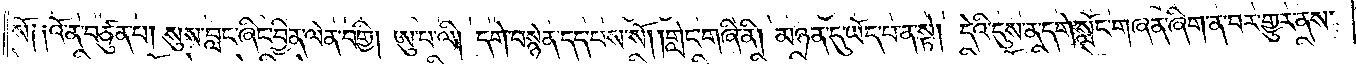སོ༑ ༑འོ་ན་བཙུན་པ། སུས་བླང་ཞིང་བྱིན་ལེན་བགྱི། ཨུ་པ་ལི། དགེ་བསྙེན་དད་པས་སོ། །གླེང་གཞི་ནི། མཉན་དུ་ཡོད་པ་ན་སྟེ། དེའི་དུས་ན་དགེ་སློང་གཞན་ཞིག་ན་བར་གྱུར་ནས་
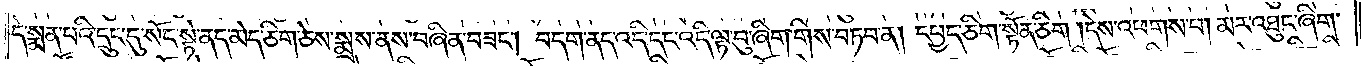དེ་སྨན་པའི་དྲུང་དུ་སོང་སྟེ་ནད་མེད་ཅིག་ཅེས་སྨྲས་ནས་བཞིན་བཟང༌། བདག་ནད་འདི་དང་འདི་ལྟ་བུ་ཞིག་གིས་བཏབ་ན། དཔྱད་ཅིག་སྟོན་ཅིག །དེས་འཕགས་པ། མར་འཐུང་ཞིག་
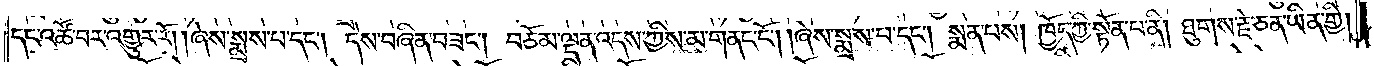དང་འཚོ་བར་འགྱུར་རོ། །ཞེས་སྨྲས་པ་དང༌། དེས་བཞིན་བཟང༌། བཅོམ་ལྡན་འདས་ཀྱིས་མ་གནང་ངོ༌། །ཞེས་སྨྲས་པ་དང༌། སྨན་པས། ཁྱོད་ཀྱི་སྟོན་པ་ནི། ཐུགས་རྗེ་ཅན་ཡིན་གྱི།
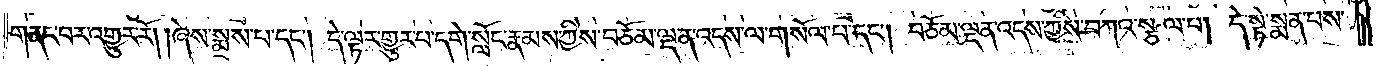གནང་བར་འགྱུར་རོ། །ཞེས་སྨྲས་པ་དང༌། དེ་ལྟར་གྱུར་པ་དགེ་སློང་རྣམས་ཀྱིས་བཅོམ་ལྡན་འདས་ལ་གསོལ་པ་དང༌། བཅོམ་ལྡན་འདས་ཀྱིས་བཀའ་སྩལ་པ། དེ་སྟེ་སྨན་པས་
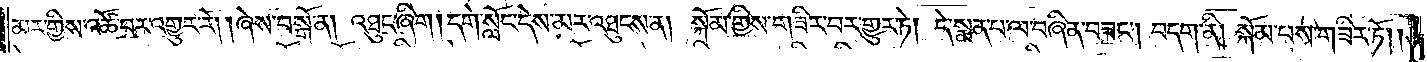མར་གྱིས་འཚོ་བར་འགྱུར་རོ། །ཞེས་བསྒོ་ན། འཐུང་ཞིག། དགེ་སློང་དེས་མར་འཐུངས་ན། སྐོམ་གྱིས་གཟིར་བར་གྱུར་ཏེ། དེ་སྨན་པ་ལ་བཞིན་བཟང༌། བདག་ནི། སྐོམ་པས་གཟིར་ཏོ། །
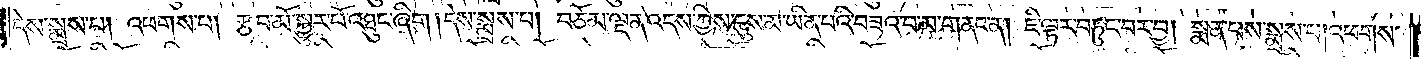དེས་སྨྲས་པ། འཕགས་པ། རྩབ་མོ་སྐྱུར་པོ་འཐུང་ཞིག །དེས་སྨྲས་པ། བཅོམ་ལྡན་འདས་ཀྱིས་དུས་མ་ཡིན་པའི་བཟའ་བ་མ་གནང་ན། ཇི་ལྟར་བཏུང་བར་བྱ། སྨན་པས་སྨྲས་པ། འཕགས་
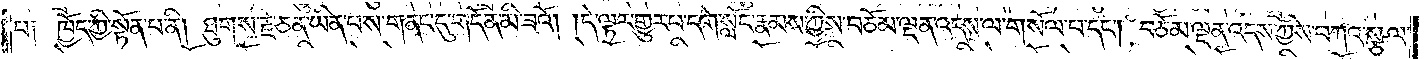པ༑ ཁྱོད་ཀྱི་སྟོན་པ་ནི། ཐུགས་རྗེ་ཅན་ཡིན་པས་གནང་དུ་གདན་མི་ཟའོ། །དེ་ལྟར་གྱུར་པ་དགེ་སློང་རྣམས་ཀྱིས་བཅོམ་ལྡན་འདས་ལ་གསོལ་པ་དང༌། བཅོམ་ལྡན་འདས་ཀྱིས་བཀའ་སྩལ་
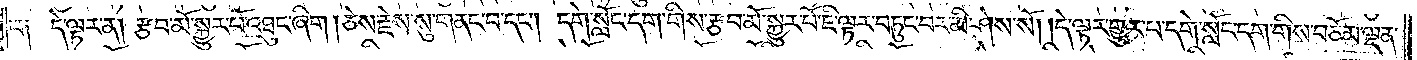པ༑ དེ་ལྟར་ན། རྩབ་མོ་སྐྱུར་པོ་འཐུང་ཞིག །ཅེས་རྗེས་སུ་གནང་བ་དང༌། དགེ་སློང་དག་གིས་རྩབ་མོ་སྐྱུར་པོ་ཇི་ལྟར་བཏུང་བར་མི་ཤེས་སོ། །དེ་ལྟར་གྱུར་པ་དགེ་སློང་དག་གིས་བཅོམ་ལྡན་
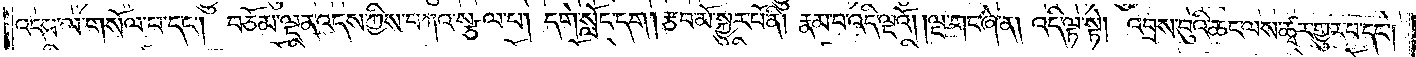འདས་ལ་གསོལ་པ་དང༌། བཅོམ་ལྡན་འདས་ཀྱིས་བཀའ་སྩལ་པ། དགེ་སློང་དག། རྩབ་མོ་སྐྱུར་པོ་ནི། རྣམ་པ་འདི་ལྔའོ། །ལྔ་གང་ཞེ་ན། འདི་ལྟ་སྟེ། འབྲས་བུའི་ཆང་ལས་ཚྭར་གྱུར་པ་དང༌།
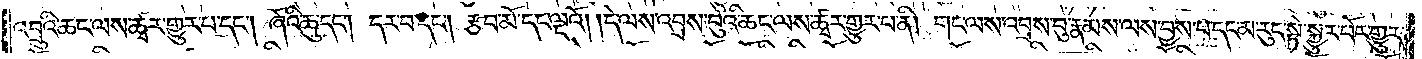འབྲུའི་ཆང་ལས་ཚྭར་གྱུར་པ་དང༌། ཞོའི་ཆུ་དང༌། དར་བ་དང༌། རྩབ་མོ་དང་ལྔའོ། །དེ་ལས་འབྲས་བུའི་ཆང་ལས་ཚྭར་གྱུར་པ་ནི། གང་ལས་འབྲས་བུ་རྣམས་ལས་བྱས་པ་དང་མ་རུང་སྟེ་སྐྱུར་པོར་གྱུར་
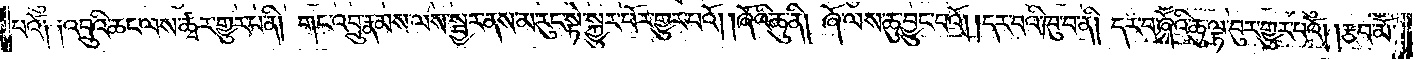པའོ༑ ༑འབྲུའི་ཆང་ལས་ཚྭར་གྱུར་པ་ནི། གང་འབྲུ་རྣམས་ལས་སྦྱར་ནས་མ་རུང་སྟེ་སྐྱུར་པོར་གྱུར་པའོ། །ཞོའི་ཆུ་ནི། ཞོ་ལས་ཆུ་བྱུང་བའོ། །དར་བའི་ཁུ་བ་ནི། དར་བ་ཞོའི་ཆུ་ལྟ་བུར་གྱུར་པའོ། །རྩབ་མོ་
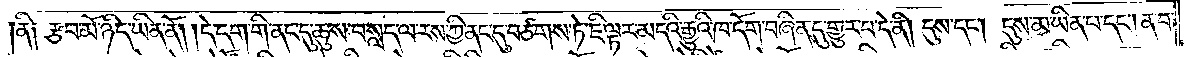ནི༑ རྩབ་མོ་ཉིད་ཡིན་ནོ། །དེ་དག་གི་ནང་དུ་ཆུས་བསླད་ལ་རས་ཀྱི་ནང་དུ་བཙགས་ཏེ་ཇི་ལྟར་མདའི་རྒྱུའི་ཁ་དོག་བཞིན་དུ་གྱུར་པ་དེ་ནི། དུས་དང༌། དུས་མ་ཡིན་པ་དང༌། ན་བ་
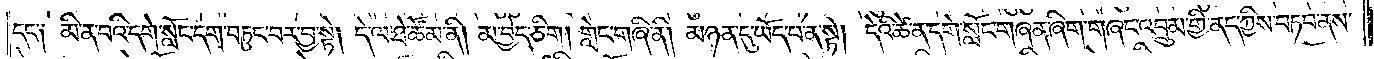དང་༑ མི་ན་བའི་དགེ་སློང་དག་བཏུང་བར་བྱ་སྟེ། དེ་ལ་ཐེ་ཚོམ་ནི། མ་བྱེད་ཅིག །གླེང་གཞི་ནི། མཉན་དུ་ཡོད་པ་ན་སྟེ། དེའི་ཚེ་ན་དགེ་སློང་གཞན་ཞིག་གཞང་འབྲུམ་གྱི་ནད་ཀྱིས་བཏབ་ནས་
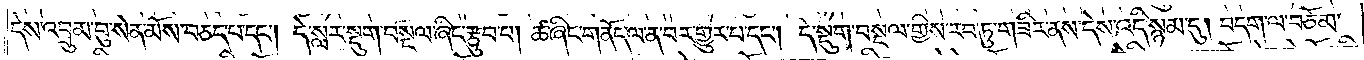དེས་འབྲུམ་བུ་སེན་མོས་བཅད་པ་དང༌། དེ་སླར་སྡུག་བསྔལ་ཞིང་རྩུབ་པ། ཚ་ཞིང་གནོད་ལ་ན་བར་གྱུར་པ་དང༌། དེ་སྡུག་བསྔལ་གྱིས་རབ་ཏུ་གཟིར་ནས་དེས་འདི་སྙམ་དུ། བདག་ལ་བཅོམ་
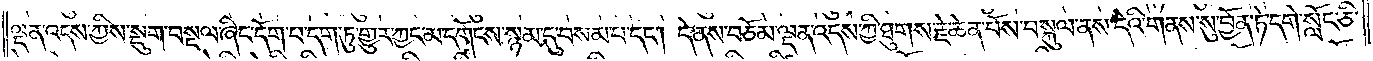ལྡན་འདས་ཀྱིས་སྡུག་བསྔལ་ཞིང་དོག་པ་དག་ཏུ་གྱུར་ཀྱང་མ་དགོངས་སྙམ་དུ་བསམ་པ་དང༌། དེ་ནས་བཅོམ་ལྡན་འདས་ཀྱི་ཐུགས་རྗེ་ཆེན་པོས་བསྐུལ་ནས་དེའི་གནས་སུ་བྱོན་ཏེ་དགེ་སློང་ཅི་
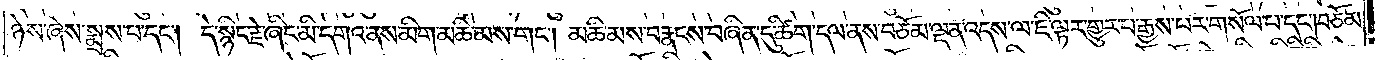ཉེས་ཞེས་སྨྲས་པ་དང༌། དེ་སྙིང་རྗེ་ཞིང་མི་དགའ་ནས་མིག་མཆི་མས་གང༌། མཆི་མས་བརྣངས་བཞིན་དུ་ཚིག་དལ་ནས་བཅོམ་ལྡན་འདས་ལ་ཇི་ལྟར་གྱུར་པ་རྒྱས་པར་གསོལ་པ་དང༌། བཅོམ་
